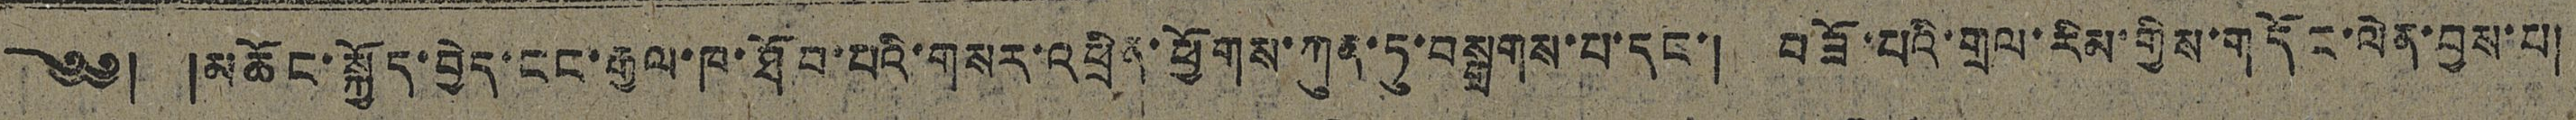༄༅། །མཆོང་སྐྱོད་བྱེད་ངང་རྒྱལ་ཁ་ཐོབ་པའི་གསར་འཕྲིན་ཕྱོགས་ཀུན་ཏུ་བསྒྲགས་པ་དང་། བཟོ་པའི་གྲལ་རིམ་གྱིས་གདོང་ལེན་བྱས་པ།
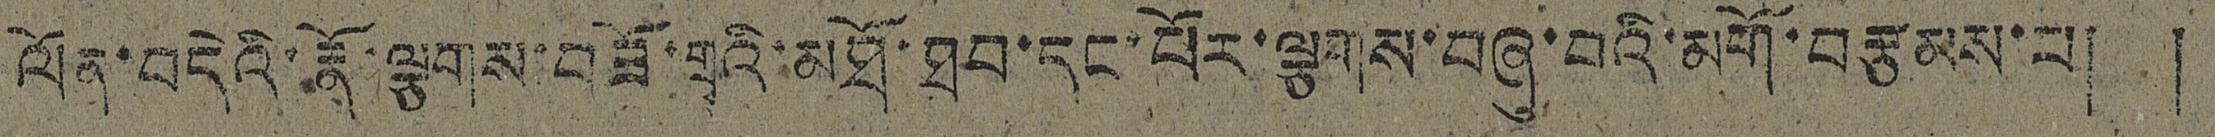ལོན་བདེའི་རྣོ་ལྕགས་བཟོ་གྲྭའི་མཐོ་ཐབ་དང་པོར་ལྕགས་བཞུ་བའི་མགོ་བརྩམས་པ། །
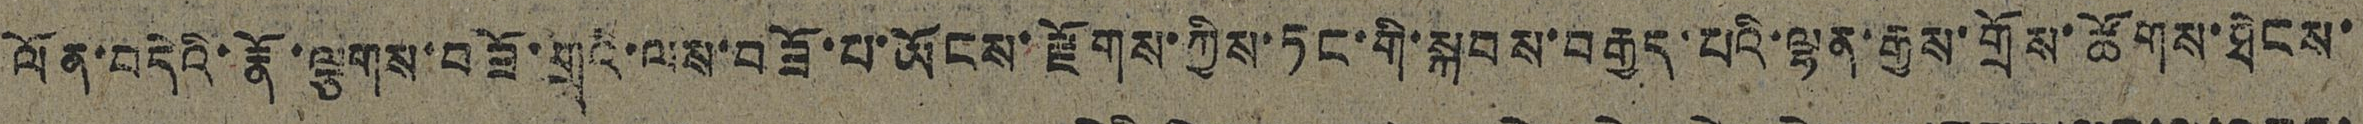ལོན་བདེའི་རྣོ་ལྕགས་བཟོ་གྲྭའི་ལས་བཟོ་པ་ཡོངས་རྫོགས་ཀྱིས་ཏང་གི་སྐབས་བརྒྱད་པའི་ལྷན་རྒྱས་གྲོས་ཚོགས་ཐེངས་
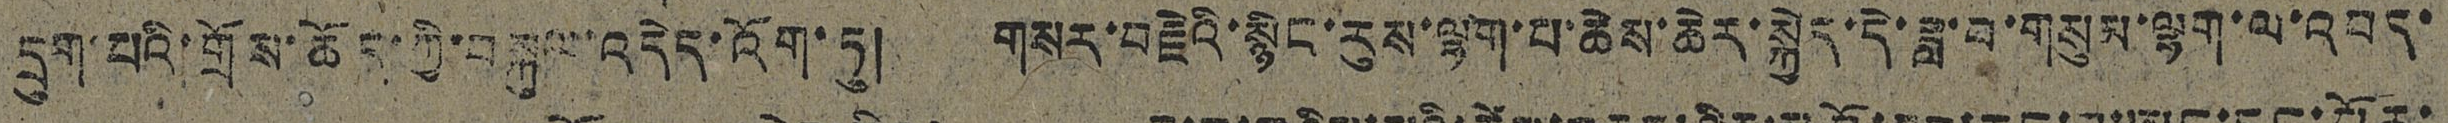དྲུག་པའི་གྲོས་ཆོད་ཀྱི་བསྐུལ་འདེད་འོག་ཏུ། གསར་བརྗེའི་སྙིང་རུས་ལྷག་པ་ཆེས་ཆེར་སྐྱེད་དེ་ཟླ་བ་གསུམ་ལྷག་ལ་འབད་
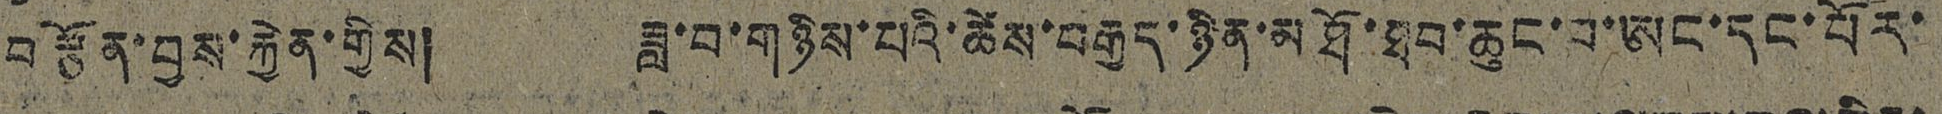བརྩོན་བྱས་རྐྱེན་གྱིས། ཟླ་བ་གཉིས་པའི་ཚེས་བརྒྱད་ཉིན་མཐོ་ཐབ་ཆུང་བ་ཨང་དང་པོར་
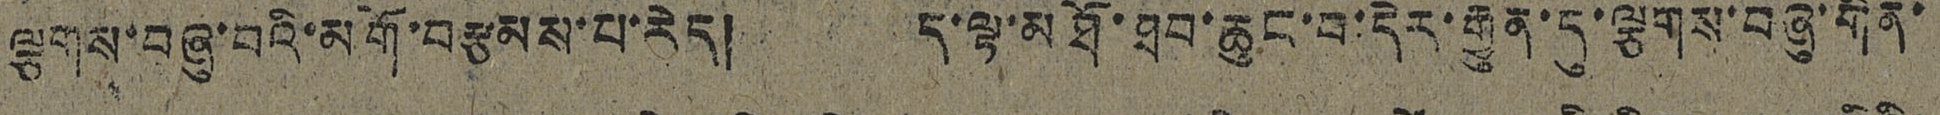ལྕགས་བཞུ་བའི་མགོ་བརྩམས་པ་རེད། ད་ལྟ་མཐོ་ཐབ་ཆུང་བ་དེར་རྒྱུན་དུ་ལྕགས་བཞུ་གིན་
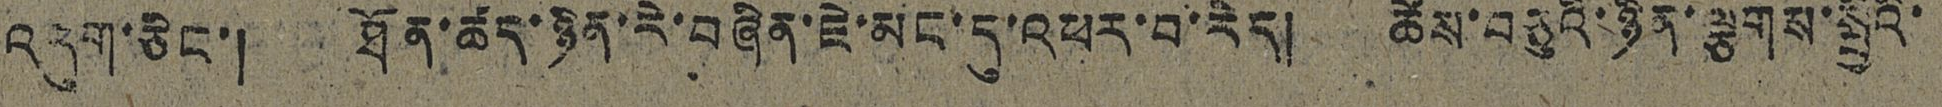འདུག་ཅིང་། ཐོན་ཚད་ཉིན་རེ་བཞིན་ཇེ་མང་དུ་འཕར་བ་རེད། ཚེས་བཅུའི་ཉིན་ལྕགས་སྤྱིའི་
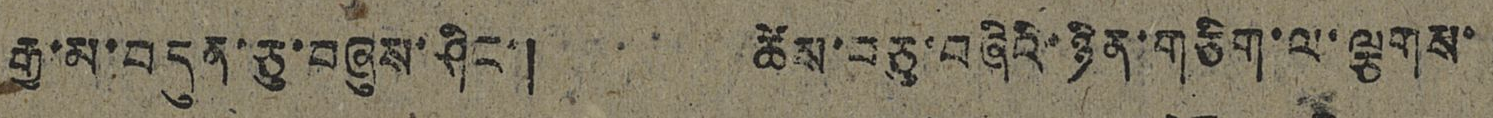རྒྱ་མ་བདུན་ཅུ་བཞུས་ཤིང་། ཚེས་བཅུ་བཞིའི་ཉིན་གཅིག་ལ་ལྕགས་
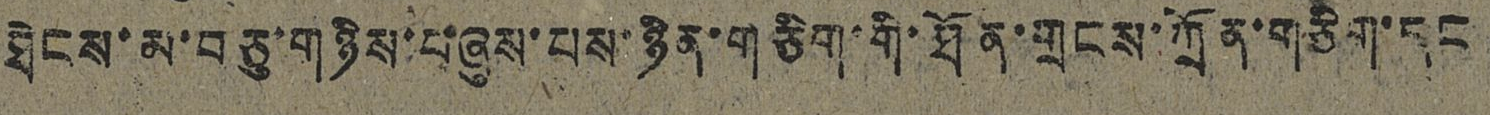ཐེངས་མ་བཅུ་གཉིས་བཞུས་པས་ཉིན་གཅིག་གི་ཐོན་གྲངས་ཀྲོན་གཅིག་དང
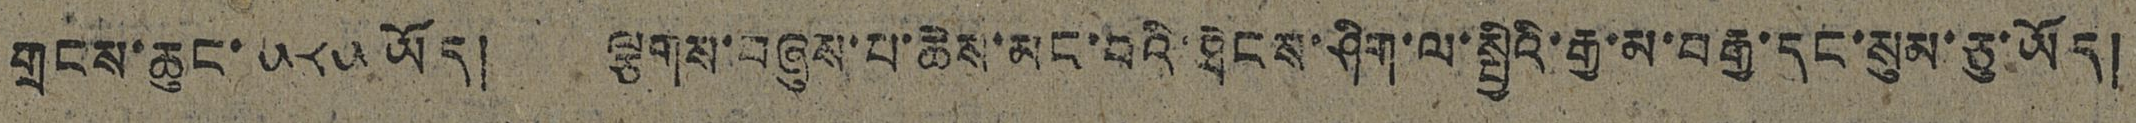གྲངས་ཆུང་ ༥༨༥ ཡོད། ལྕགས་བཞུས་པ་ཆེས་མང་བའི་ཐེངས་ཤིག་ལ་སྤྱིའི་རྒྱ་མ་བརྒྱ་དང་སུམ་ཅུ་ཡོད།
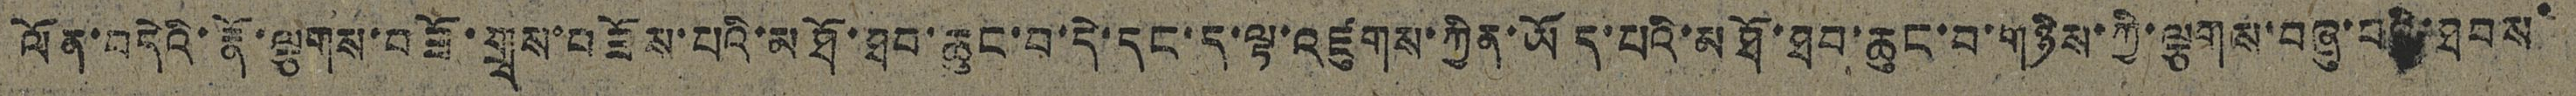ལོན་བདེའི་རྣོ་ལྕགས་བཟོ་གྲྭས་བཟོས་པའི་མཐོ་ཐབ་ཆུང་བ་དེ་དང་ད་ལྟ་འཛུགས་ཀྱིན་ཡོད་པའི་མཐོ་ཐབ་ཆུང་བ་གཉིས་ཀྱི་ལྕགས་བཞུ་བའི་ཐབས་
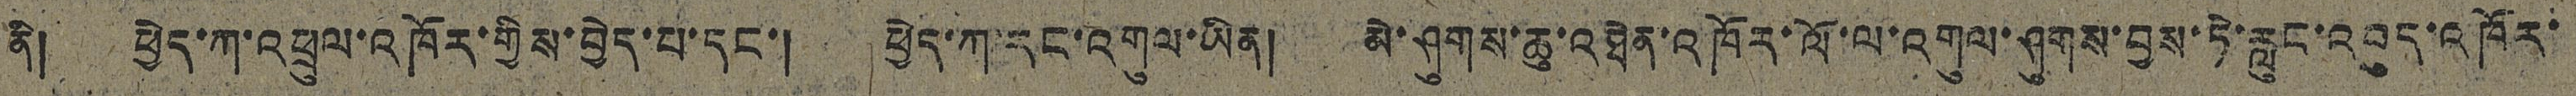ནི། ཕྱེད་ཀ་འཕྲུལ་འཁོར་གྱིས་བྱེད་པ་དང་། ཕྱེད་ཀ་རང་འགུལ་ཡིན། མེ་ཤུགས་ཆུ་འཐེན་འཁོར་ལོ་ལ་འགུལ་ཤུགས་བྱས་ཏེ་རླུང་འབུད་འཁོར་
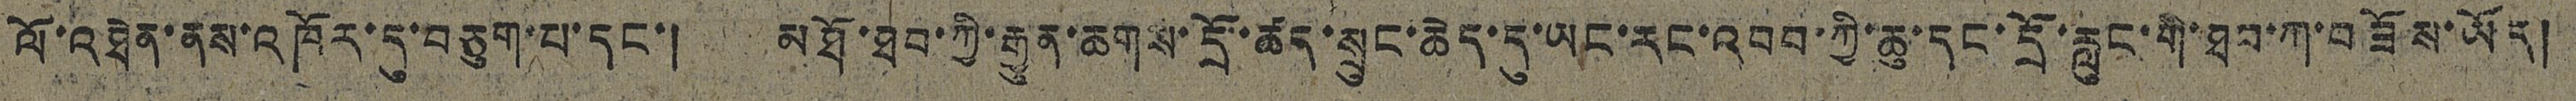ལོ་འཐེན་ནས་འཁོར་དུ་བཅུག་པ་དང་། མཐོ་ཐབ་ཀྱི་རྒྱུན་ཆགས་དྲོ་ཚད་སྲུང་ཆེད་དུ་ཡང་རང་འབབ་ཀྱི་ཆུ་དང་དྲོ་རླུང་གི་ཐབ་ཀ་བཟོས་ཡོད།
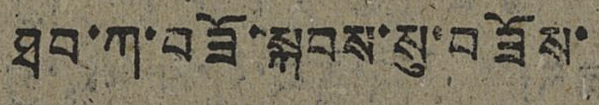ཐབ་ཀ་བཟོ་སྐབས་སུ་བཟོས་
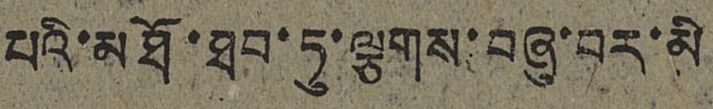པའི་མཐོ་ཐབ་ཏུ་ལྕགས་བཞུ་བར་མི
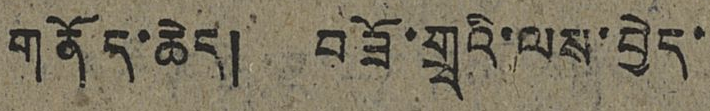གནོད་ཆེད། བཟོ་གྲྭའི་ལས་བྱེད་
